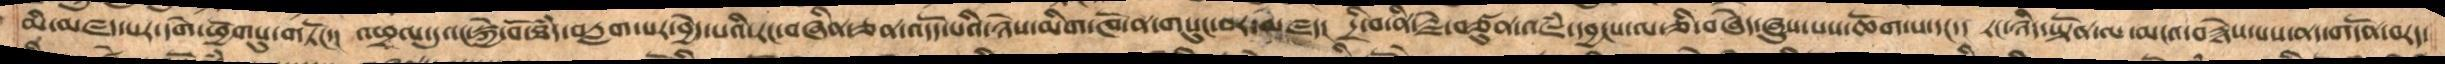མི་མཛད་པར་དགེ་ཕྱོགསུ་གཏོང་།  འཕྲལ་དུའང་སྐྱེ་བོ་ཐཾད་བརླག་པར་བྱེད་པའི་རང་བཞིན་ཅན་འདོད་པའི་ཉེས་མིག་ཁོ་ན་གསུང་བར་མཛད།  དྲི་བ་ནི་རྗེ་བཙུན་འཇཾ་དབྱངས་ལ་ཅི་བཞེད་ཞུས་པས་ཆོག་པ་དང་།  རང་ཉིད་ཡྟོན་ལ་མངའ་བརྙེས་པས་ནད་གདོན་བརད་
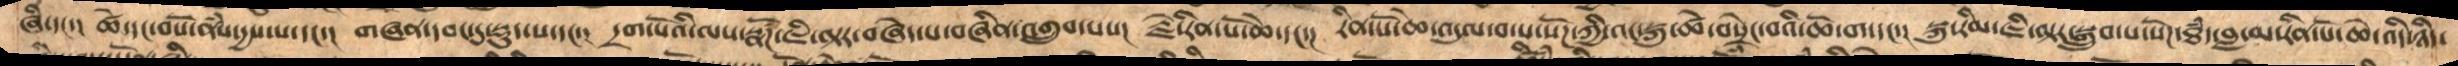ཞི་དང་།  ཚེ་དང་བསོ་ནཾས་དྱས་པ་དང་།   གཞན་དབང་དུ་སྡུད་པ་དང་།  དྲག་པོའི་ལས་སྣཚོཌ་ཇི་ལྟར་བཞེད་པ་བཞིན་འགྲུབ་པས།  རྗེ་རིན་པོ་ཆེ་དང་།  རིན་པོ་ཆེ་འདུལ་བ་པ་སོཌ་ཀྱི་འང་སྐུ་ཚེ་བསྲེང་བའི་ཆོ་ག་དང་།  སྐུ་རིམ་ཇི་ལྟར་སྒྲུབ་པ་སོཌ་ཐཾད་བླ་མ་རིན་པོ་ཆེ་འདི་ཉིད་
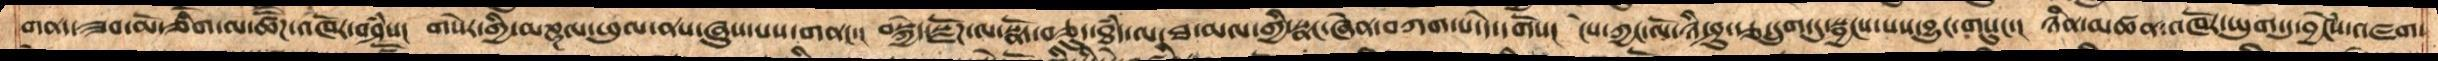གནད་ཟབ་མོ་ཅིག་ལ་ཚོཌ་འཁོར་བཤཾས།  གསེར་གྱི་མཎྜལ་ཕུལ་ནས་ཞུས་པས་གནང་།  བསྐྱེད་སྫོཌ་ལ་སྣོད་བཅུད་ཐཾད་ལ་ཐ་མལ་གྱི་སྣང་ཞེན་བཀག་པ་དེ་དགོས།  ངེས་ཀྱང་ལོ་་ཉི་ཤུ་རྩ་དྲུག་དུ་སྦྱངས་པས་བྱུང་གསུང།  ཉིན་མཚན་ཁོར་ཡུག་དུ་བྱངེསཾ་འཛག་
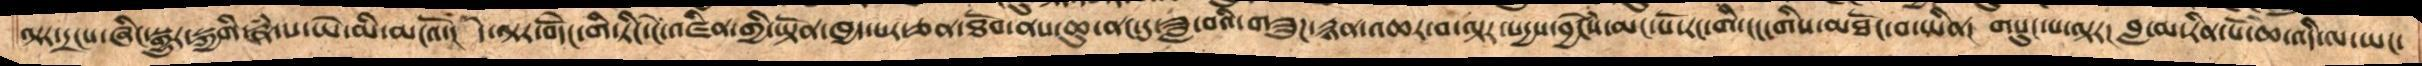ལྟར་དྲངས་ཞིང་སྒྱུར་སྐྱགི་རྣཾ་པ་ཡེ་མི་མངའོ།  དེ་ལྟར་བདེངོ་གི་ཏིང་ངེ་འཛིན་གྱི་ཡྟོན་ཁྱད་པར་ཅན་ཐོབ་ནས་ཆུ་ནང་དུ་ཟླ་བའི་གཟུཌ་རྙན་འཆར་བ་ལྟར་སདྱས་བྱངེསཾ་མང་པོ་རང་གི་ངང་གིས་མཐོང་བ་ཡིན།  གསུང་པ་ལྟར།  བླ་མ་རིན་པོ་ཆེ་འདི་ལ་ཡང་
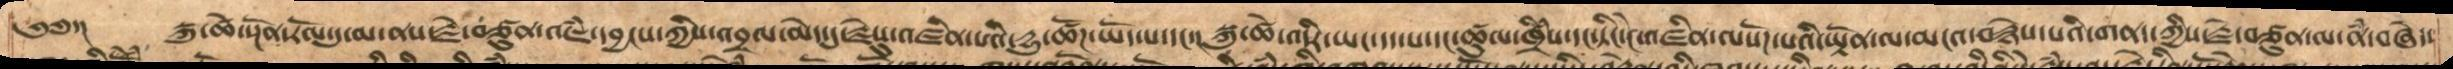༄༅་།   སྐུ་ཚེ་སྔོན་རོལ་དུ་མ་ནས་རྗེ་བཙུན་འཇཾ་དབྱངས་ཀྱིས་འབྲལ་མེད་དུ་རྗེསུ་འཛིན་པའི་དྱུ་ཚོཌ་ཡོད་པ་དང་།  སྐུ་ཚེ་འདིར་ཡང་དད་པ་དང་ཚུལ་ཁྲིཾས་དང་ཏིང་ངེ་འཛིན་ལསོཌ་པའི་ཡྟོན་ལ་མངའ་བརྙེས་པའི་གནད་ཀྱིས་རྗེ་བཙུན་ལ་ནཾ་བཞེད་
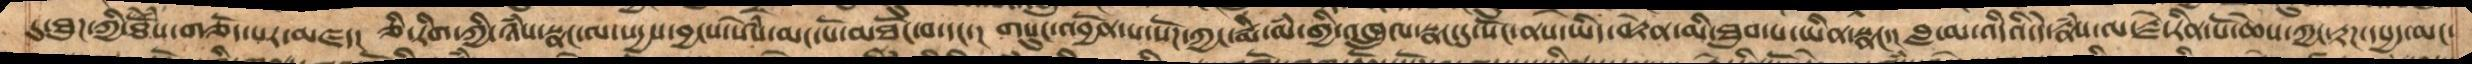དུ་ཐུཌ་ཀྱི་ཐེོཾས་གཅོད་པར་མཛད།  ཅི་རིག་ཀྱི་ཉཾས་སྣང་ལ་སདྱས་བྱང་སེཾས་མང་པོ་མཐོང་བ་དང་།  གསུང་འབྱོན་པ་སོཌ་ཀྱང་རྨི་ལཾ་གྱི་འཁྲུལ་སྣང་དུ་སོང་ནས་ཡིད་བརྟེན་མི་ཐུབ་པ་ཡིན་སྣང་།  བླ་མ་འདིའི་དེ་རྣཾས་ལ་རྗེ་རིན་པོ་ཆེས་ཀྱང་རྟཌ་དཔྱད་མང་
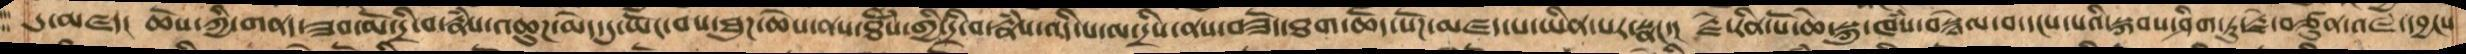དུ་མཛད།  ཆོས་ཀྱི་གནད་ཟབ་མོ་དྲི་བ་རྣཾས་འཆུཌ་མེད་དུ་ཡོང་བས་ཐུཌ་ཆེས་ནས་ཐེོཾས་གྱི་དྲི་བ་རྣཾས་འདི་པ་ལ་དྲིས་ནས་བཟོད་ཐག་ཆོད་སོཌ་མཛད་པ་ཡིན་པར་སྣང་།  རྗེ་རིན་པོ་ཆེ་སྐུ་ཁཾས་བསྙེལ་བ་དངས་པའི་སྐབས་ཤིག་ཏུ་རྗེ་བཙུན་འཇཾ་དབྱངས་
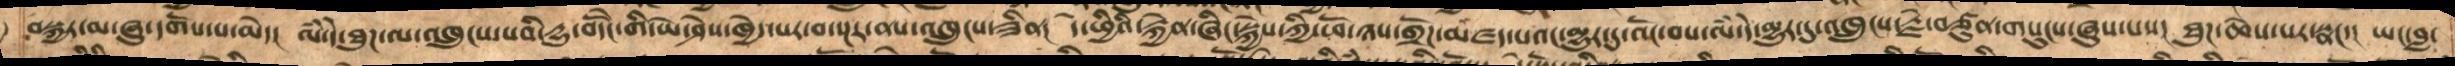བསྐྱར་མ་ཞུ་དགོས་པ་མེད།  ལཾ་དེ་ཐུཌ་ལ་འཁྲུངས་པའི་དྱུ་བདེོང་གི་ཡེ་ཤེས་ཁྱེད་པར་བ་སྔར་ནས་འཁྲུངས་ཟིན།  ད་ཕྱིའི་རྐྱེན་ཞིང་སྐྱེས་ཀྱི་ཕོ་ཉས་གྲོཌ་མཛད་པའང་མྱུར་དུ་འོང་བས་ལཾ་དེ་མྱུར་དུ་འཁྲུངས་རྗེ་བཙུན་གསུངས་ཞུས་པས།  ཐུཌ་ཆེས་པར་སྣང་།  ཡང་བླ་
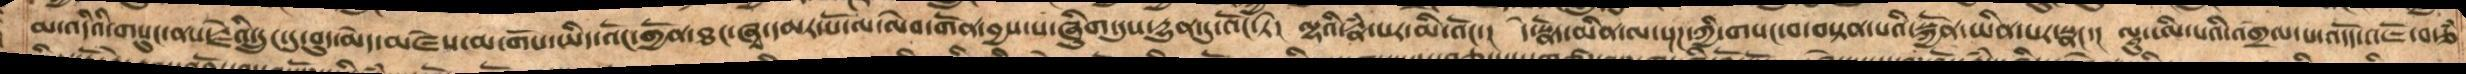མ་འདིའི་གསུང་ནས་རྗེའི་དྲུང་དུ་བུད་མེད་མཛེས་མ་གོས་ཡིད་འོང་གྱོན་ཐང་ཞྭ་དམར་པོ་ལ་ལེབ་གོན་བྱས་པ་ཞིུག་དུས་དྱུན་དུ་འོང་ཏེ།  ལྷའི་རྣཾ་པར་མི་འོང་།  དེ་སྣོད་མིན་ལ་སྔཌ་ཀྱི་གསང་བ་བསྟན་པའི་སྐྱོན་ཡིན་པར་སྣང་།  ལཱུ་ཨི་པའི་འགྲེལ་པ་འདོད་འཇོ་བ་ཙཾ
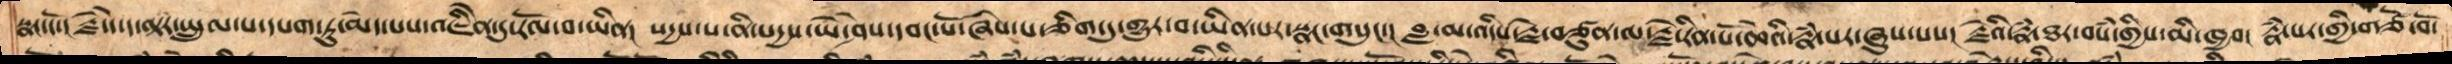སྣང་ངོ།  རྗེ་དེ་ད་ལྟ་སྤྲུལ་པ་དཔག་ཏུ་མེད་པས་འཇིེན་དུ་རོལ་བ་ཡིན།  སདྱས་པ་ནི་སདྱས་ཡེ་ཤེས་དབང་པོ་ཞེས་པ་ཅིག་དུ་གྱུར་བ་ཡིན་པར་སྣང་གསུང་།  བླ་མ་འདིས་རྗེ་བཙུན་ལ་རྗེ་རིན་པོ་ཆེའི་རྣཾ་པར་ཞུས་པས།  རྗེའི་རྣཾ་ཐར་བསཾ་གྱིས་མི་ཁྱབ།  རྣཾ་པར་གྱི་གཙོ་བོ་
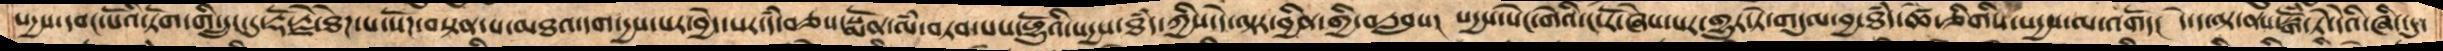སདྱས་དབང་པོའི་ཏོག་གི་དྲུང་དུ་རྡོ་རྗེ་ཐེཌ་པ་སོཌ་བསྟན་པ་མཐའ་དག་དྱས་པར་བྱེད་པར་དཾ་བཅས་སྨོན་ལཾ་བཏབ་པས་ཕྱོུའི་སདྱས་ཐཾད་ཀྱིས་དེ་ལྟར་བྱིན་གྱིས་བརླབས།  སདྱས་སེང་གེའི་ང་རོ་ཞེས་པར་གྱུར་ཏེ་གདུལ་བྱ་ཐཾད་ཚེ་ཅིགིས་སདྱས་ལ་འགོད།  དེ་ད་ལྟ་ནས་སྒོཾ་ཏེ་དེའི་ཞིང་དུ་
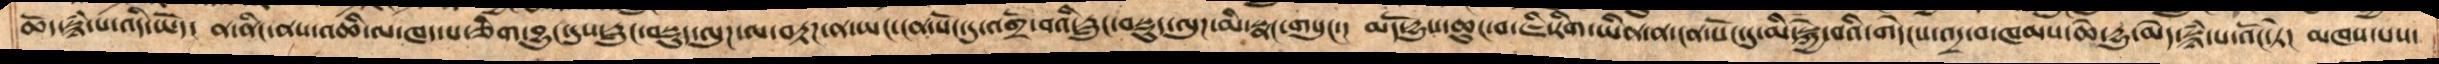ཆོད་སྙཾ་པ་འདི་ཡོད།  ན་ནིང་ནས་འཆི་ལ་ཁད་པ་ཅིག་བྱུང་དུས་རླུང་བསྡུད་ལུཌ་ལ་བརྟཌ་ན་ཡང་ངན་སོང་དུ་འགྲོ་བའི་རླུང་བསྡུད་ལུཌ་མི་སྣང་གསུང་།  མདོ་དྱུས་ཆུང་བ་ཇི་རིག་ཡིན་ན་ངན་སོང་དུ་མི་སྐྱེ་བའི་གདེངས་འདྲ་བ་ཁམས་ཆེ་དྱུ་མེད་སྙཾ་པ་འོང་ཏེ།  མཁས་པས་
